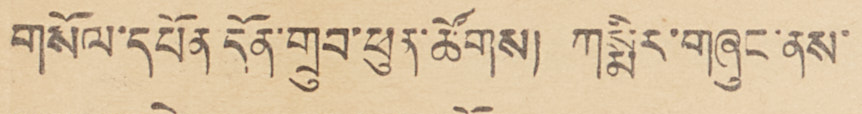གསོལ་དཔོན དོན་གྲུབ་ཕུན་ཚོགས། ཀསྨིར་གཞུང་ནས་
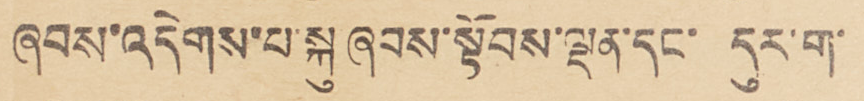ཞབས་འདེགས་པ་སྐུ་ཞབས་སྟོབས་ལྡན་དང་ དུར་ག་
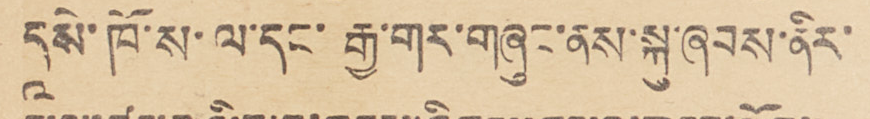དཱསེ་ཁོ་ས་ལ་དང་ རྒྱ་གར་གཞུང་ནས་སྐུ་ཞབས་ནིར་
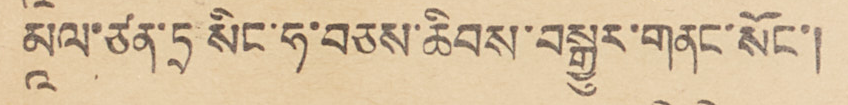མཱལ་ཙན་ཏྲ སིང་ཧ་བཅས་ཆིབས་བསྒྱུར་གནང་སོང་།
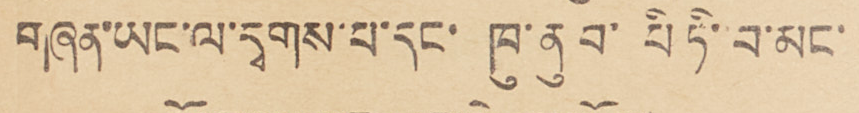གཞན་ཡང་ལ་དྭགས་པ་དང་ ཁ་ནུ བ་ པི ཏི་བ་མང་
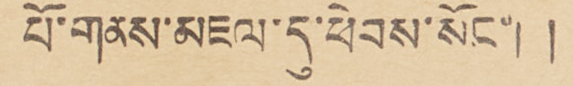པོ་གནས་མཇལ་དུ་ཕེབས་སོང་། །
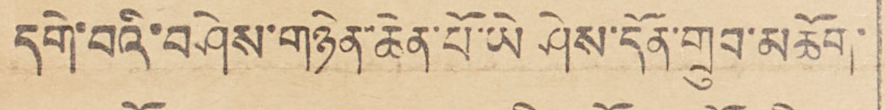དགེ་བའི་བཤེས་གཉེན་ཆེན་པོ་ཡེ ཤེས་དོན་གྲུབ་མཆོག་
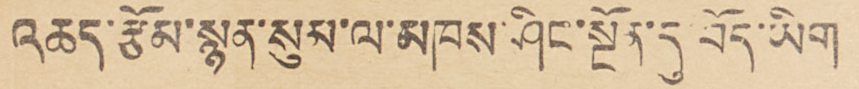འཆད་རྩོམ་སྙན་སུམ་ལ་མཁས་ཤིང་སྔོན་དུ་བོད་ཡིག
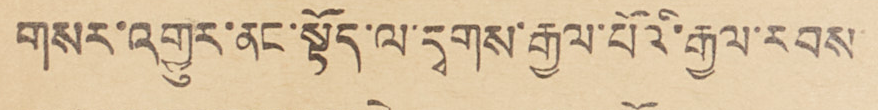གསར་འགྱུར་ནང་སྟོད་ལ་དྭགས་རྒྱལ་པོའི་རྒྱལ་རབས་
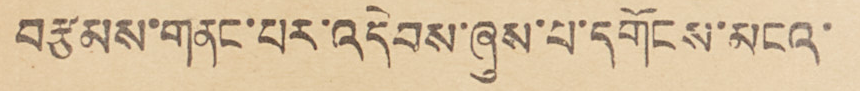བརྩམས་གནང་པར་འདེབས་ཞུས་པ་དགོངས་མངའ་
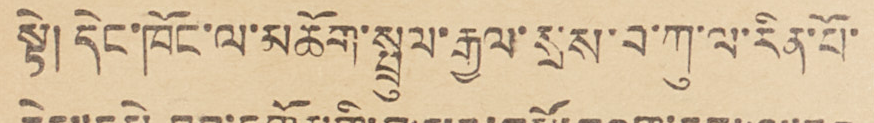སྟེ། དེང་ཁོང་ལ་མཆོག་སྤྲུལ་རྒྱལ་སྲས་བ་ཀུ་ལ་རིན་པོ་
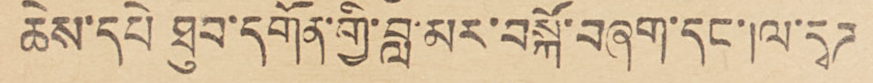ཆེས་དཔེ ཐུབ་དགོན་གྱི་བླ་མར་བསྐོ་བཞག་དང་།ལ་དྭཌ
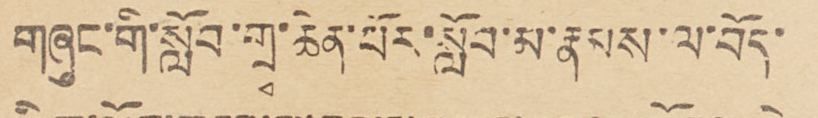གཞུང་གི་སློབ་གྲྭ་ཆེན་པོར་སློབ་མ་རྣམས་ལ་བོད་
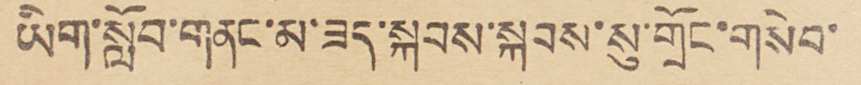ཡིག་སློབ་གནང་མ་ཟད་སྐབས་སྐབས་སུ་གྲོང་གསེབ་
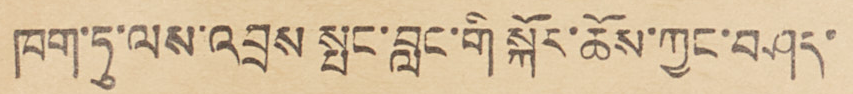ཁག་ཏུ་ལས་འབྲས སྤང་བླང་གི སྐོར་ཆོས་ཀྱང་བཤད་
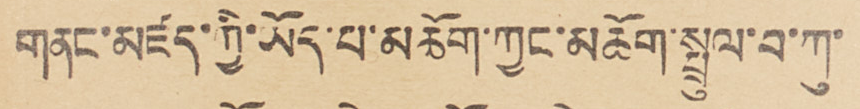གནང་མཛད་ཀྱི་ཡོད་པ་མཆོག་ཀྱང་མཆོག་སྤྲུལ་བ་ཀུ་
